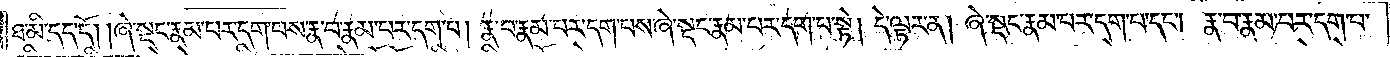ཐ་མི་དད་དོ། །ཞེ་སྡང་རྣམ་པར་དག་པས་རྣ་བ་རྣམ་པར་དག་པ། རྣ་བ་རྣམ་པར་དག་པས་ཞེ་སྡང་རྣམ་པར་དག་པ་སྟེ། དེ་ལྟར་ན། ཞེ་སྡང་རྣམ་པར་དག་པ་དང༌། རྣ་བ་རྣམ་པར་དག་པ་
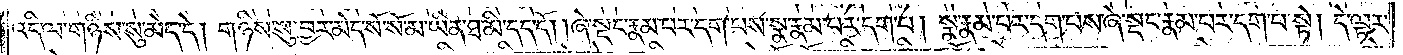འདི་ལ་གཉིས་སུ་མེད་དེ། གཉིས་སུ་བྱར་མེད་སོ་སོ་མ་ཡིན་ཐ་མི་དད་དོ། །ཞེ་སྡང་རྣམ་པར་དག་པས་སྣ་རྣམ་པར་དག་པ། སྣ་རྣམ་པར་དག་པས་ཞེ་སྡང་རྣམ་པར་དག་པ་སྟེ། དེ་ལྟར་
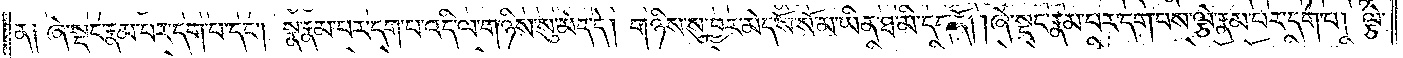ན༑ ཞེ་སྡང་རྣམ་པར་དག་པ་དང༌། སྣ་རྣམ་པར་དག་པ་འདི་ལ་གཉིས་སུ་མེད་དེ། གཉིས་སུ་བྱར་མེད་སོ་སོ་མ་ཡིན་ཐ་མི་དད་དོ། །ཞེ་སྡང་རྣམ་པར་དག་པས་ལྕེ་རྣམ་པར་དག་པ། ལྕེ་
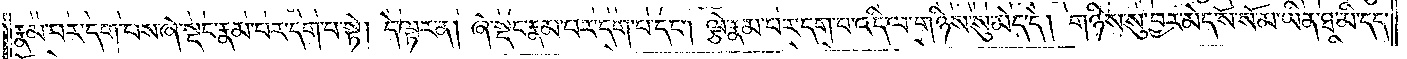རྣམ་པར་དག་པས་ཞེ་སྡང་རྣམ་པར་དག་པ་སྟེ། དེ་ལྟར་ན། ཞེ་སྡང་རྣམ་པར་དག་པ་དང༌། ལྕེ་རྣམ་པར་དག་པ་འདི་ལ་གཉིས་སུ་མེད་དེ། གཉིས་སུ་བྱར་མེད་སོ་སོ་མ་ཡིན་ཐ་མི་དད་
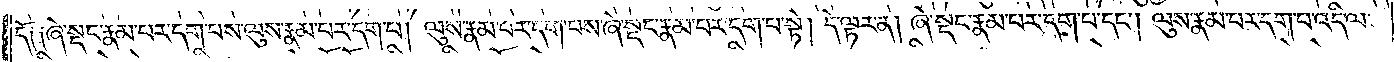དོ། །ཞེ་སྡང་རྣམ་པར་དག་པས་ལུས་རྣམ་པར་དག་པ། ལུས་རྣམ་པར་དག་པས་ཞེ་སྡང་རྣམ་པར་དག་པ་སྟེ། དེ་ལྟར་ན། ཞེ་སྡང་རྣམ་པར་དག་པ་དང༌། ལུས་རྣམ་པར་དག་པ་འདི་ལ་
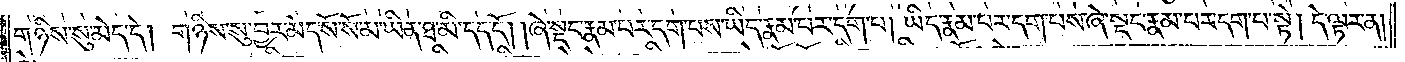གཉིས་སུ་མེད་དེ། གཉིས་སུ་བྱར་མེད་སོ་སོ་མ་ཡིན་ཐ་མི་དད་དོ། །ཞེ་སྡང་རྣམ་པར་དག་པས་ཡིད་རྣམ་པར་དག་པ། ཡིད་རྣམ་པར་དག་པས་ཞེ་སྡང་རྣམ་པར་དག་པ་སྟེ། དེ་ལྟར་ན།
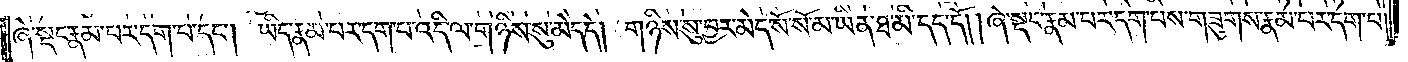ཞེ་སྡང་རྣམ་པར་དག་པ་དང༌། ཡིད་རྣམ་པར་དག་པ་འདི་ལ་གཉིས་སུ་མེད་དེ། གཉིས་སུ་བྱར་མེད་སོ་སོ་མ་ཡིན་ཐ་མི་དད་དོ། །ཞེ་སྡང་རྣམ་པར་དག་པས་གཟུགས་རྣམ་པར་དག་པ།
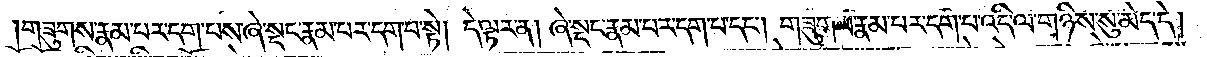གཟུགས་རྣམ་པར་དག་པས་ཞེ་སྡང་རྣམ་པར་དག་པ་སྟེ། དེ་ལྟར་ན། ཞེ་སྡང་རྣམ་པར་དག་པ་དང༌། གཟུགས་རྣམ་པར་དག་པ་འདི་ལ་གཉིས་སུ་མེད་དེ།
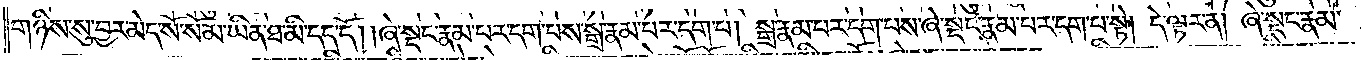གཉིས་སུ་བྱར་མེད་སོ་སོ་མ་ཡིན་ཐ་མི་དད་དོ། །ཞེ་སྡང་རྣམ་པར་དག་པས་སྒྲ་རྣམ་པར་དག་པ། སྒྲ་རྣམ་པར་དག་པས་ཞེ་སྡང་རྣམ་པར་དག་པ་སྟེ། དེ་ལྟར་ན། ཞེ་སྡང་རྣམ་
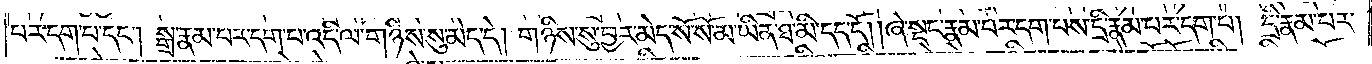པར་དག་པ་དང༌། སྒྲ་རྣམ་པར་དག་པ་འདི་ལ་གཉིས་སུ་མེད་དེ། གཉིས་སུ་བྱར་མེད་སོ་སོ་མ་ཡིན་ཐ་མི་དད་དོ། །ཞེ་སྡང་རྣམ་པར་དག་པས་དྲི་རྣམ་པར་དག་པ། དྲི་རྣམ་པར་
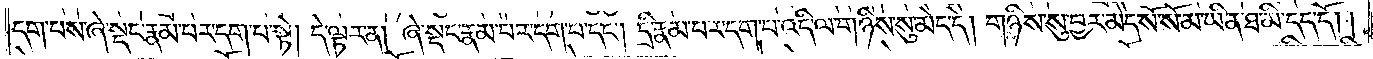དག་པས་ཞེ་སྡང་རྣམ་པར་དག་པ་སྟེ། དེ་ལྟར་ན་ཞེ་སྡང་རྣམ་པར་དག་པ་དང༌། དྲི་རྣམ་པར་དག་པ་འདི་ལ་གཉིས་སུ་མེད་དེ། གཉིས་སུ་བྱར་མེད་སོ་སོ་མ་ཡིན་ཐ་མི་དད་དོ། །
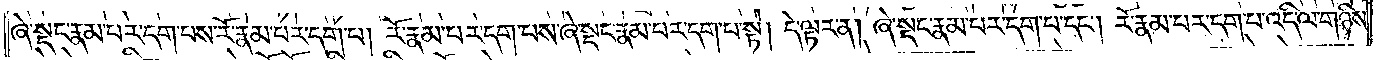ཞེ་སྡང་རྣམ་པར་དག་པས་རོ་རྣམ་པར་དག་པ། རོ་རྣམ་པར་དག་པས་ཞེ་སྡང་རྣམ་པར་དག་པ་སྟེ། དེ་ལྟར་ན། ཞེ་སྡང་རྣམ་པར་དག་པ་དང༌། རོ་རྣམ་པར་དག་པ་འདི་ལ་གཉིས་
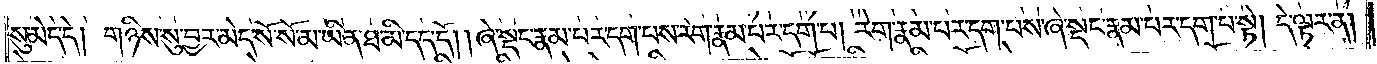སུ་མེད་དེ། གཉིས་སུ་བྱར་མེད་སོ་སོ་མ་ཡིན་ཐ་མི་དད་དོ། །ཞེ་སྡང་རྣམ་པར་དག་པས་རེག་རྣམ་པར་དག་པ། རེག་རྣམ་པར་དག་པས་ཞེ་སྡང་རྣམ་པར་དག་པ་སྟེ། དེ་ལྟར་ན།
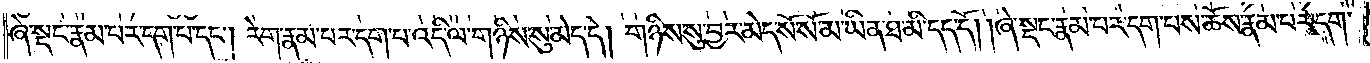ཞེ་སྡང་རྣམ་པར་དག་པ་དང༌། རེག་པ་རྣམ་པར་དག་པ་འདི་ལ་གཉིས་སུ་མེད་དེ། གཉིས་སུ་བྱར་མེད་སོ་སོ་མ་ཡིན་ཐ་མི་དད་དོ། །ཞེ་སྡང་རྣམ་པར་དག་པས་ཆོས་རྣམ་པར་དག་
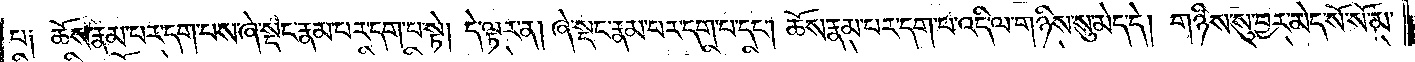པ། ཆོས་རྣམ་པར་དག་པས་ཞེ་སྡང་རྣམ་པར་དག་པ་སྟེ། དེ་ལྟར་ན། ཞེ་སྡང་རྣམ་པར་དག་པ་དང༌། ཆོས་རྣམ་པར་དག་པ་འདི་ལ་གཉིས་སུ་མེད་དེ། གཉིས་སུ་བྱར་མེད་སོ་སོ་མ་
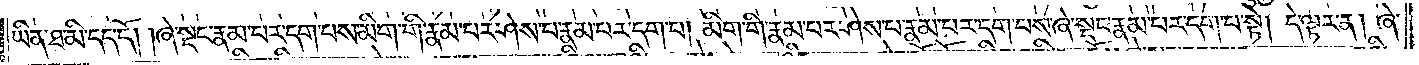ཡིན་ཐ་མི་དད་དོ། །ཞེ་སྡང་རྣམ་པར་དག་པས་མིག་གི་རྣམ་པར་ཤེས་པ་རྣམ་པར་དག་པ། མིག་གི་རྣམ་པར་ཤེས་པ་རྣམ་པར་དག་པས་ཞེ་སྡང་རྣམ་པར་དག་པ་སྟེ། དེ་ལྟར་ན། ཞེ་
